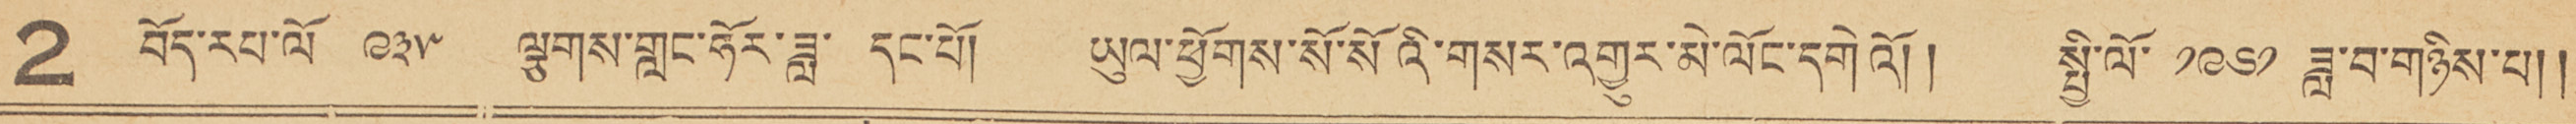2 བོད་རབ་ལོ་ ༩༣༥ ལྕགས་གླང་ཧོར་ཟླ་ དང་པོ། ཡུལ་ཕྱོགས་སོ་སོའི་གསར་འགྱུར་མེ་ལོང་དགེའོ༎ སྤྱི་ལོ་ ༡༩༦༡ ཟླ་བ་གཉིས་པ༎
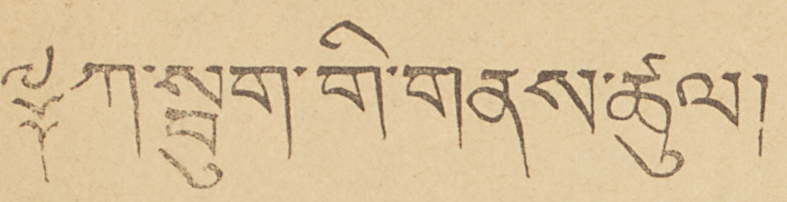༈ ཀ་སྦུག་གི་གནས་ཚུལ།
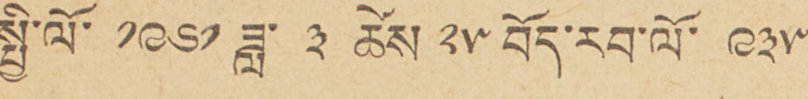སྤྱི་ལོ་ ༡༩༦༡ ཟླ་ ༣ ཚེས་ ༢༥ བོད་རབ་ལོ་ ༩༣༥
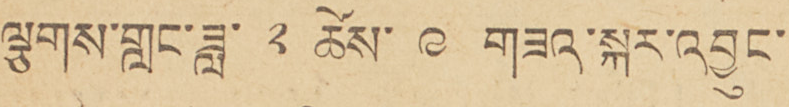ལྕགས་གླང་ཟླ་ ༢ ཚེས་ ༩ གཟའ་སྐར་འབྱུང་
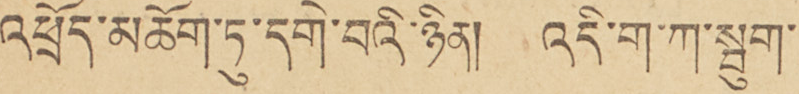འཕྲོད་མཆོག་ཏུ་དགེ་བའི་ཉིན།། འདི་ག་ཀ་སྦུག་
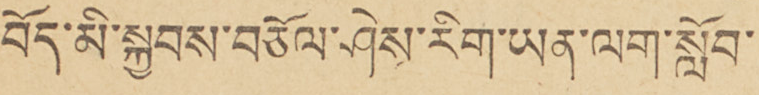བོད་མི་སྐྱབས་བཅོལ་ཤེས་རིག་ཡན་ལག་སློབ་
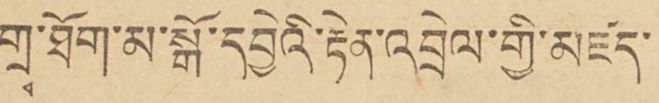གྲྭ་ཐོག་མ་སྒོ་དབྱེའི་རྟེན་འབྲེལ་གྱི་མཛད་
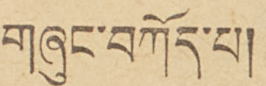གཞུང་བཀོད་པ།
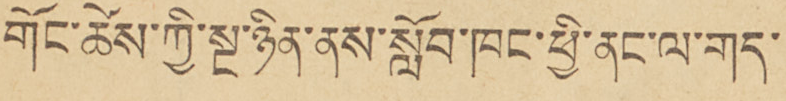གོང་ཚེས་ཀྱི་སྔ་ཉིན་ནས་སློབ་ཁང་ཕྱི་ནང་ལ་གད་
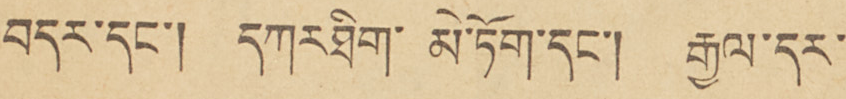བདར་དང་། དཀར་ཐིག་ མེ་ཏོག་དང་། རྒྱལ་དར་
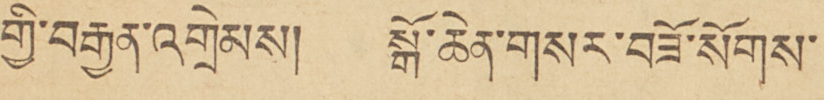གྱི་བརྒྱན་འགྲེམས། སྒོ་ཆེན་གསར་བཟོ་སོགས་
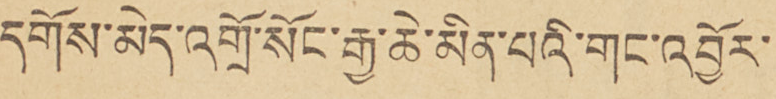དགོས་མེད་འགྲོ་སོང་རྒྱ་ཆེ་མིན་པའི་གང་འབྱོར་
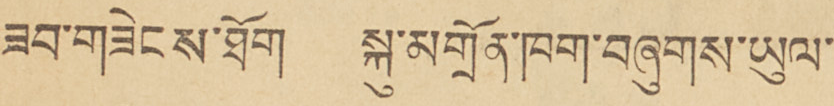ཟབ་གཟེངས་ཐོག སྐུ་མགྲོན་ཁག་བཞུགས་ཡུལ་
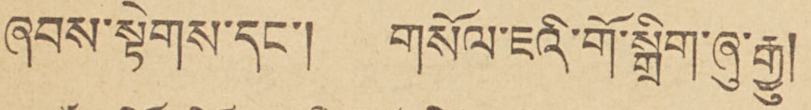ཞབས་སྟེགས་དང་། གསོལ་ཇའི་གོ་སྒྲིག་ཞུ་རྒྱུ།
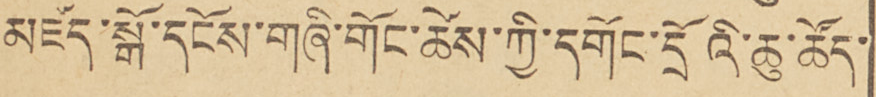མཛད་སྒོ་དངོས་གཞི་གོང་ཚེས་ཀྱི་དགོང་དྲོའི་ཆུ་ཚོད་
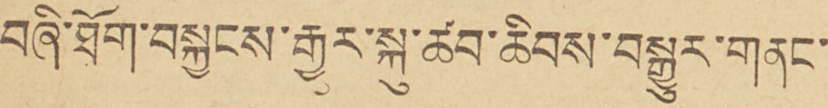བཞི་ཐོག་བསྐྱངས་རྒྱར་སྐུ་ཚབ་ཆིབས་བསྒྱུར་གནང་
